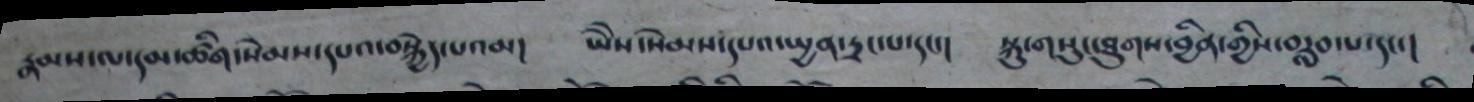རྣམས་ལ་དམ་ཚིག་སེམས་དཔའ་བསྐྱེད་པའམ། ཡཻས་སེམས་དཔའ་སྤྱན་དྲང་པ་དང་། སྐུ་གསུང་ཐུགས་བྱིན་གྱིས་བརླབ་པ་དང་།
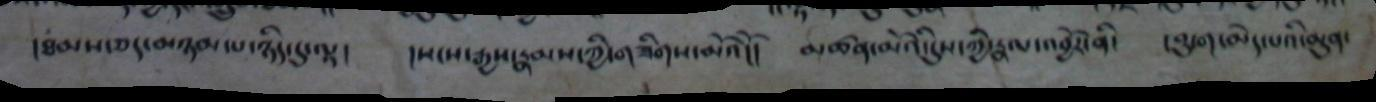།ཐམས་ཅད་མཉམ་པ་ཉིད་དུ་ལྟ། །སངས་རྒྱས་རྣམས་ཀྱི་གཟིགས་མོའོ།། མཚན་མོའི་དུས་ཀྱི་རྣལ་འབྱོར་ནི། །བུ་ག་མེད་པའི་མུན་
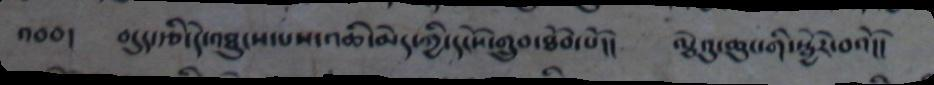འབབ། བདུད་རྩི་དེ་འཐུངས་པས་འཆི་མེད་ཀྱི་དངོས་གྲུབ་ཐོབ་པོ།། ལྕེའུ་ཆུང་གི་སྦྱོར་བའོ།།
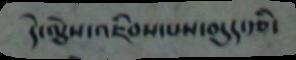དེ་ལྕེས་འཇིབས་པས་བདུད་རྩི་
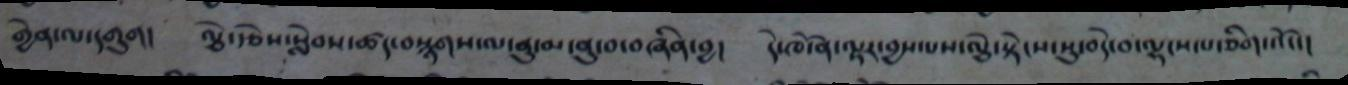གྱེན་ལ་དགུག། ལྕེ་རྩེས་སླེབས་ཚད་བསྙགས་ལ་ནུ་མ་ནུ་བ་བཞིན་བྱ། དེ་ཁོ་ན་ལྟར་བྱས་པས་ལྕེ་སྟེངས་སུ་བདེ་བ་ལྷངས་པ་ཅིག་འོང་།།
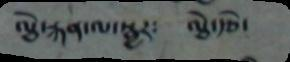ལྕེ་རྐན་ལ་སྦྱར༴ ལྕེ་རྩེ་
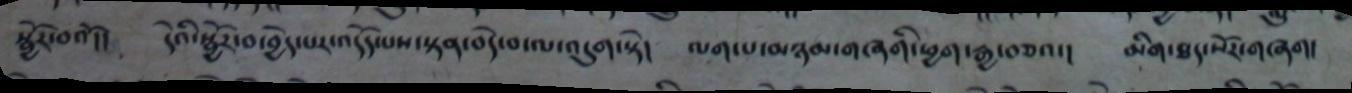སྦྱོར་བའོ།། དེའི་སྦྱོར་བ་བྱེད་པར་འདོད་པས་སྟན་བདེ་བ་ལ་འདུག་སྟེ། ལག་པ་མཉམ་གཞགི་ཕྱག་རྒྱ་བཅའ་། མིག་ཐད་སོར་གཞག།
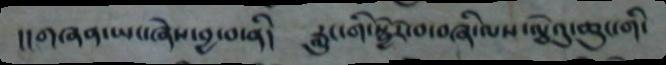།།གཞན་ཡང་ཞེས་བྱ་བ་ནི། རླུང་གི་སྦྱོར་བ་བཞི་ལས་ལྕེའུ་ཆུང་གི་
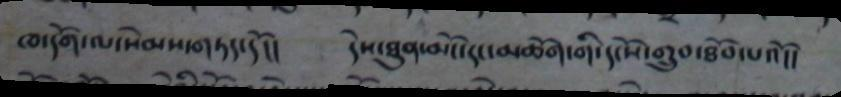ཁ་དོག་ལ་སེམས་གཏད་དོ།། དེས་ཐུན་མོང་དང་མཆོག་གི་དངོས་གྲུབ་ཐོབ་པའོ།།
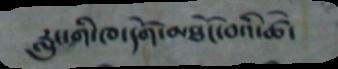རླུང་གི་ཁ་དོག་མཐོང་བའི་ཚེ་
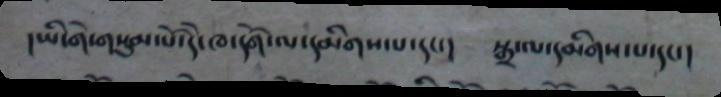།ཡི་གེ་གསུམ་པོ་དེ་ཁ་དོག་ལ་དམིགས་པ་དང་། སྒྲ་ལ་དམིགས་པ་དང་།
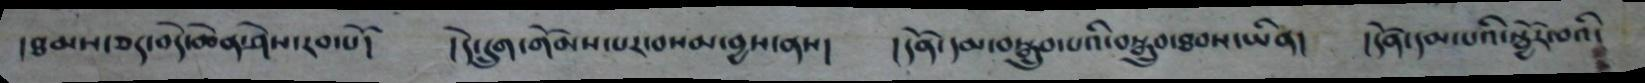།ཐམས་ཅད་བདེ་ཆེན་ཤེས་རབ་པོ། །དེ་དྲུག་གོམས་པར་བསམ་བྱས་ནས། །དོན་དམ་བསྒྲུབ་པའི་བསྒྲུབ་ཐབས་ཡིན། །དོན་དམ་པའི་སྦྱོར་བའི་
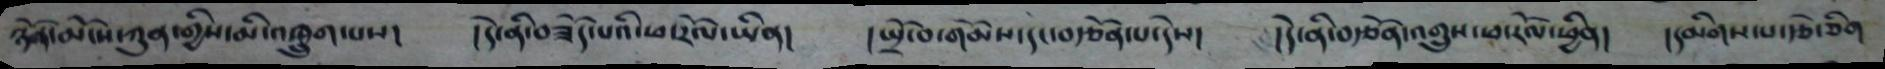ཉོན་མོངས་ཀུན་གྱིས་མི་འཁྲུག་པས། །དེ་ནི་བཟོད་པའི་ཕ་རོལ་ཡིན། །སྤྲོ་བ་གོམས་དང་བརྩོན་པ་དེས། །དེ་ནི་བརྩོན་འགྲུས་ཕ་རོལ་ཕྱིན། །དམིགས་པ་རྩེ་ཅིག
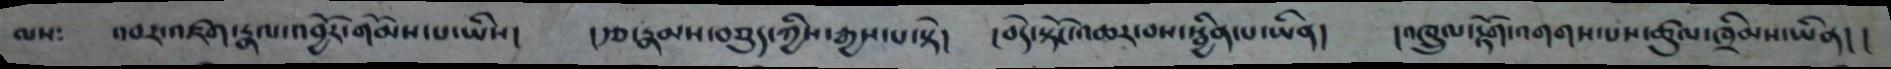ལས༴ འབར་འཛག་རྣལ་འབྱོར་གོམས་པ་ཡིས། །རྩ་རྣམས་བཅུད་ཀྱིས་རྒྱས་པ་སྟེ། །བདེ་སྟོང་འཆར་བས་སྦྱིན་པ་ཡིན། །འཁྲུལ་རྟོག་འགགས་པས་ཚུལ་ཁྲིམས་ཡིན། །
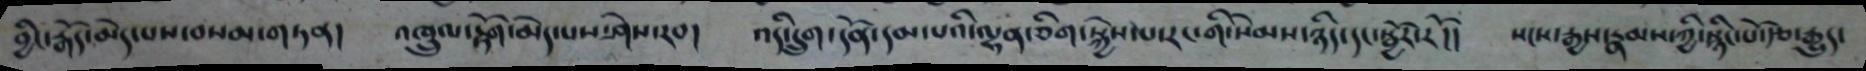བྱིང་རྒོད་མེད་པས་བསམ་གཏན། འཁྲུལ་རྟོག་མེད་པས་ཤེས་རབ། འདི་དྲུག་དོན་དམ་པའི་ལྷན་ཅིག་སྐྱེས་པ་རང་གི་སེམས་ཉིད་དང་སྦྱོར་རོ།། སངས་རྒྱས་རྣམས་ཀྱི་སྙིང་པོ་རྩེ་རྒྱུད་
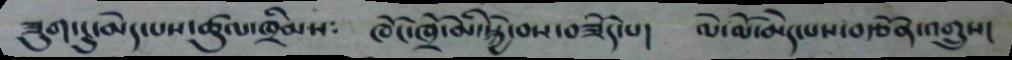ཟུག་ངུ་མེད་པས་ཚུལ་ཁྲིམས༴ ཁོང་ཁྲོ་མི་སྐྱེ་བས་བཟོད་པ། ལེ་ལོ་མེད་པས་བརྩོན་འགྲུས།
